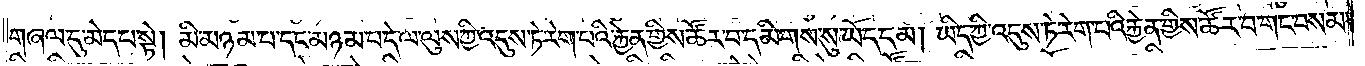གཞལ་དུ་མེད་པ་སྟེ། མི་མཉམ་པ་དང་མཉམ་པ་དེ་ལ་ལུས་ཀྱི་འདུས་ཏེ་རེག་པའི་རྐྱེན་གྱིས་ཚོར་བ་དམིགས་སུ་ཡོད་དམ། ཡིད་ཀྱི་འདུས་ཏེ་རེག་པའི་རྐྱེན་གྱིས་ཚོར་བ་གང་བསམ་
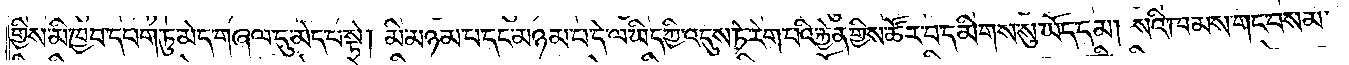གྱིས་མི་ཁྱབ་དཔག་ཏུ་མེད་གཞལ་དུ་མེད་པ་སྟེ། མི་མཉམ་པ་དང་མཉམ་པ་དེ་ལ་ཡིད་ཀྱི་འདུས་ཏེ་རེག་པའི་རྐྱེན་གྱིས་ཚོར་བ་དམིགས་སུ་ཡོད་དམ། སའི་ཁམས་གང་བསམ་
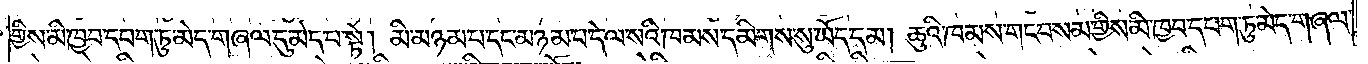གྱིས་མི་ཁྱབ་དཔག་ཏུ་མེད་གཞལ་དུ་མེད་པ་སྟེ། མི་མཉམ་པ་དང་མཉམ་པ་དེ་ལ་སའི་ཁམས་དམིགས་སུ་ཡོད་དམ། ཆུའི་ཁམས་གང་བསམ་གྱིས་མི་ཁྱབ་དཔག་ཏུ་མེད་གཞལ་
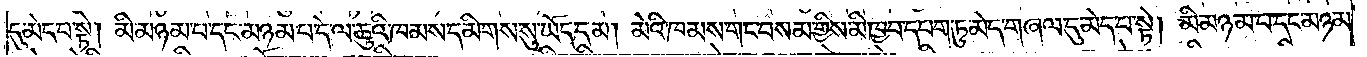དུ་མེད་པ་སྟེ། མི་མཉམ་པ་དང་མཉམ་པ་དེ་ལ་ཆུའི་ཁམས་དམིགས་སུ་ཡོད་དམ། མེའི་ཁམས་གང་བསམ་གྱིས་མི་ཁྱབ་དཔག་ཏུ་མེད་གཞལ་དུ་མེད་པ་སྟེ། མི་མཉམ་པ་དང་མཉམ་
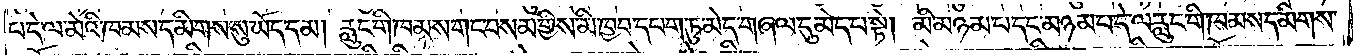པ་དེ་ལ་མེའི་ཁམས་དམིགས་སུ་ཡོད་དམ། རླུང་གི་ཁམས་གང་བསམ་གྱིས་མི་ཁྱབ་དཔག་ཏུ་མེད་གཞལ་དུ་མེད་པ་སྟེ། མི་མཉམ་པ་དང་མཉམ་པ་དེ་ལ་རླུང་གི་ཁམས་དམིགས་
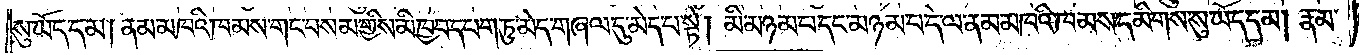སུ་ཡོད་དམ། ནམ་མཁའི་ཁམས་གང་བསམ་གྱིས་མི་ཁྱབ་དཔག་ཏུ་མེད་གཞལ་དུ་མེད་པ་སྟེ། མི་མཉམ་པ་དང་མཉམ་པ་དེ་ལ་ནམ་མཁའི་ཁམས་དམིགས་སུ་ཡོད་དམ། རྣམ་
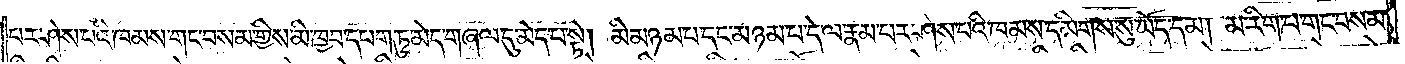པར་ཤེས་པའི་ཁམས་གང་བསམ་གྱིས་མི་ཁྱབ་དཔག་ཏུ་མེད་གཞལ་དུ་མེད་པ་སྟེ། མི་མཉམ་པ་དང་མཉམ་པ་དེ་ལ་རྣམ་པར་ཤེས་པའི་ཁམས་དམིགས་སུ་ཡོད་དམ། མ་རིག་པ་གང་བསམ་
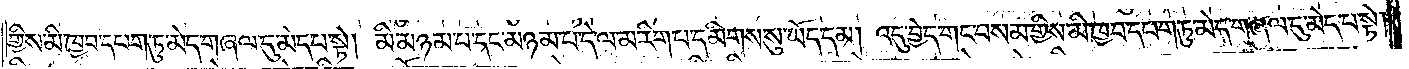གྱིས་མི་ཁྱབ་དཔག་ཏུ་མེད་གཞལ་དུ་མེད་པ་སྟེ། མི་མཉམ་པ་དང་མཉམ་པ་དེ་ལ་མ་རིག་པ་དམིགས་སུ་ཡོད་དམ། འདུ་བྱེད་གང་བསམ་གྱིས་མི་ཁྱབ་དཔག་ཏུ་མེད་གཞལ་དུ་མེད་པ་སྟེ།
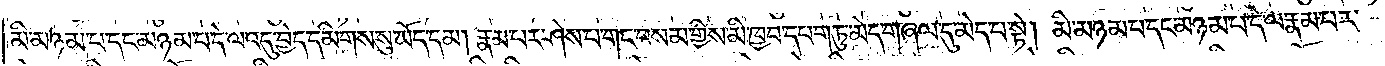མི་མཉམ་པ་དང་མཉམ་པ་དེ་ལ་འདུ་བྱེད་དམིགས་སུ་ཡོད་དམ། རྣམ་པར་ཤེས་པ་གང་བསམ་གྱིས་མི་ཁྱབ་དཔག་ཏུ་མེད་གཞལ་དུ་མེད་པ་སྟེ། མི་མཉམ་པ་དང་མཉམ་པ་དེ་ལ་རྣམ་པར་
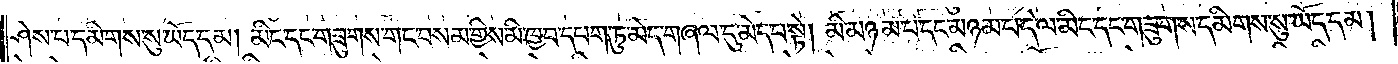ཤེས་པ་དམིགས་སུ་ཡོད་དམ། མིང་དང་གཟུགས་གང་བསམ་གྱིས་མི་ཁྱབ་དཔག་ཏུ་མེད་གཞལ་དུ་མེད་པ་སྟེ། མི་མཉམ་པ་དང་མཉམ་པ་དེ་ལ་མིང་དང་གཟུགས་དམིགས་སུ་ཡོད་དམ།
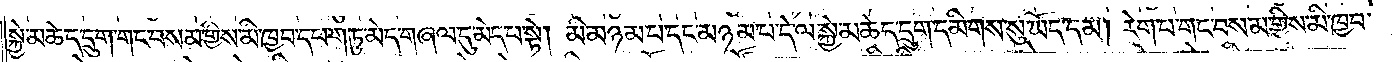སྐྱེ་མཆེད་དྲུག་གང་བསམ་གྱིས་མི་ཁྱབ་དཔག་ཏུ་མེད་གཞལ་དུ་མེད་པ་སྟེ། མི་མཉམ་པ་དང་མཉམ་པ་དེ་ལ་སྐྱེ་མཆེད་དྲུག་དམིགས་སུ་ཡོད་དམ། རེག་པ་གང་བསམ་གྱིས་མི་ཁྱབ་
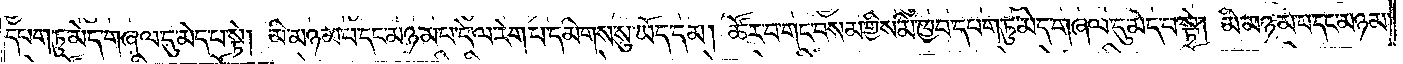དཔག་ཏུ་མེད་གཞལ་དུ་མེད་པ་སྟེ། མི་མཉམ་པ་དང་མཉམ་པ་དེ་ལ་རེག་པ་དམིགས་སུ་ཡོད་དམ། ཚོར་བ་གང་བསམ་གྱིས་མི་ཁྱབ་དཔག་ཏུ་མེད་གཞལ་དུ་མེད་པ་སྟེ། མི་མཉམ་པ་དང་མཉམ་
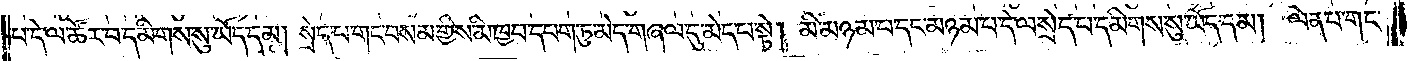པ་དེ་ལ་ཚོར་བ་དམིགས་སུ་ཡོད་དམ། སྲེད་པ་གང་བསམ་གྱིས་མི་ཁྱབ་དཔག་ཏུ་མེད་གཞལ་དུ་མེད་པ་སྟེ། མི་མཉམ་པ་དང་མཉམ་པ་དེ་ལ་སྲེད་པ་དམིགས་སུ་ཡོད་དམ། ལེན་པ་གང་
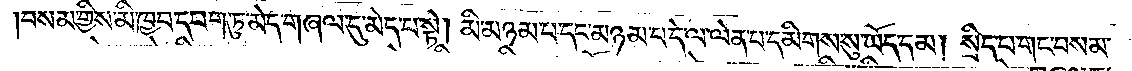བསམ་གྱིས་མི་ཁྱབ་དཔག་ཏུ་མེད་གཞལ་དུ་མེད་པ་སྟེ། མི་མཉམ་པ་དང་མཉམ་པ་དེ་ལ་ལེན་པ་དམིགས་སུ་ཡོད་དམ། སྲིད་པ་གང་བསམ་
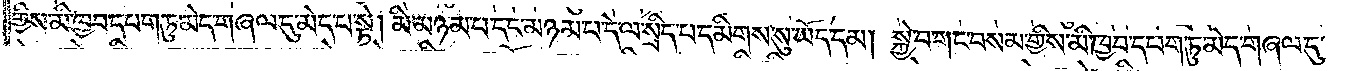གྱིས་མི་ཁྱབ་དཔག་ཏུ་མེད་གཞལ་དུ་མེད་པ་སྟེ། མི་མཉམ་པ་དང་མཉམ་པ་དེ་ལ་སྲིད་པ་དམིགས་སུ་ཡོད་དམ། སྐྱེ་བ་གང་བསམ་གྱིས་མི་ཁྱབ་དཔག་ཏུ་མེད་གཞལ་དུ་
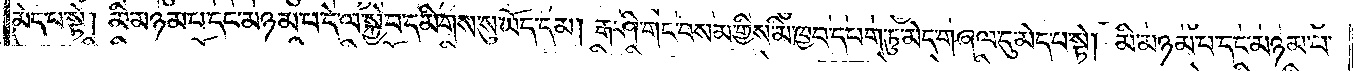མེད་པ་སྟེ། མི་མཉམ་པ་དང་མཉམ་པ་དེ་ལ་སྐྱེ་བ་དམིགས་སུ་ཡོད་དམ། རྒ་ཤི་གང་བསམ་གྱིས་མི་ཁྱབ་དཔག་ཏུ་མེད་གཞལ་དུ་མེད་པ་སྟེ། མི་མཉམ་པ་དང་མཉམ་པ་
